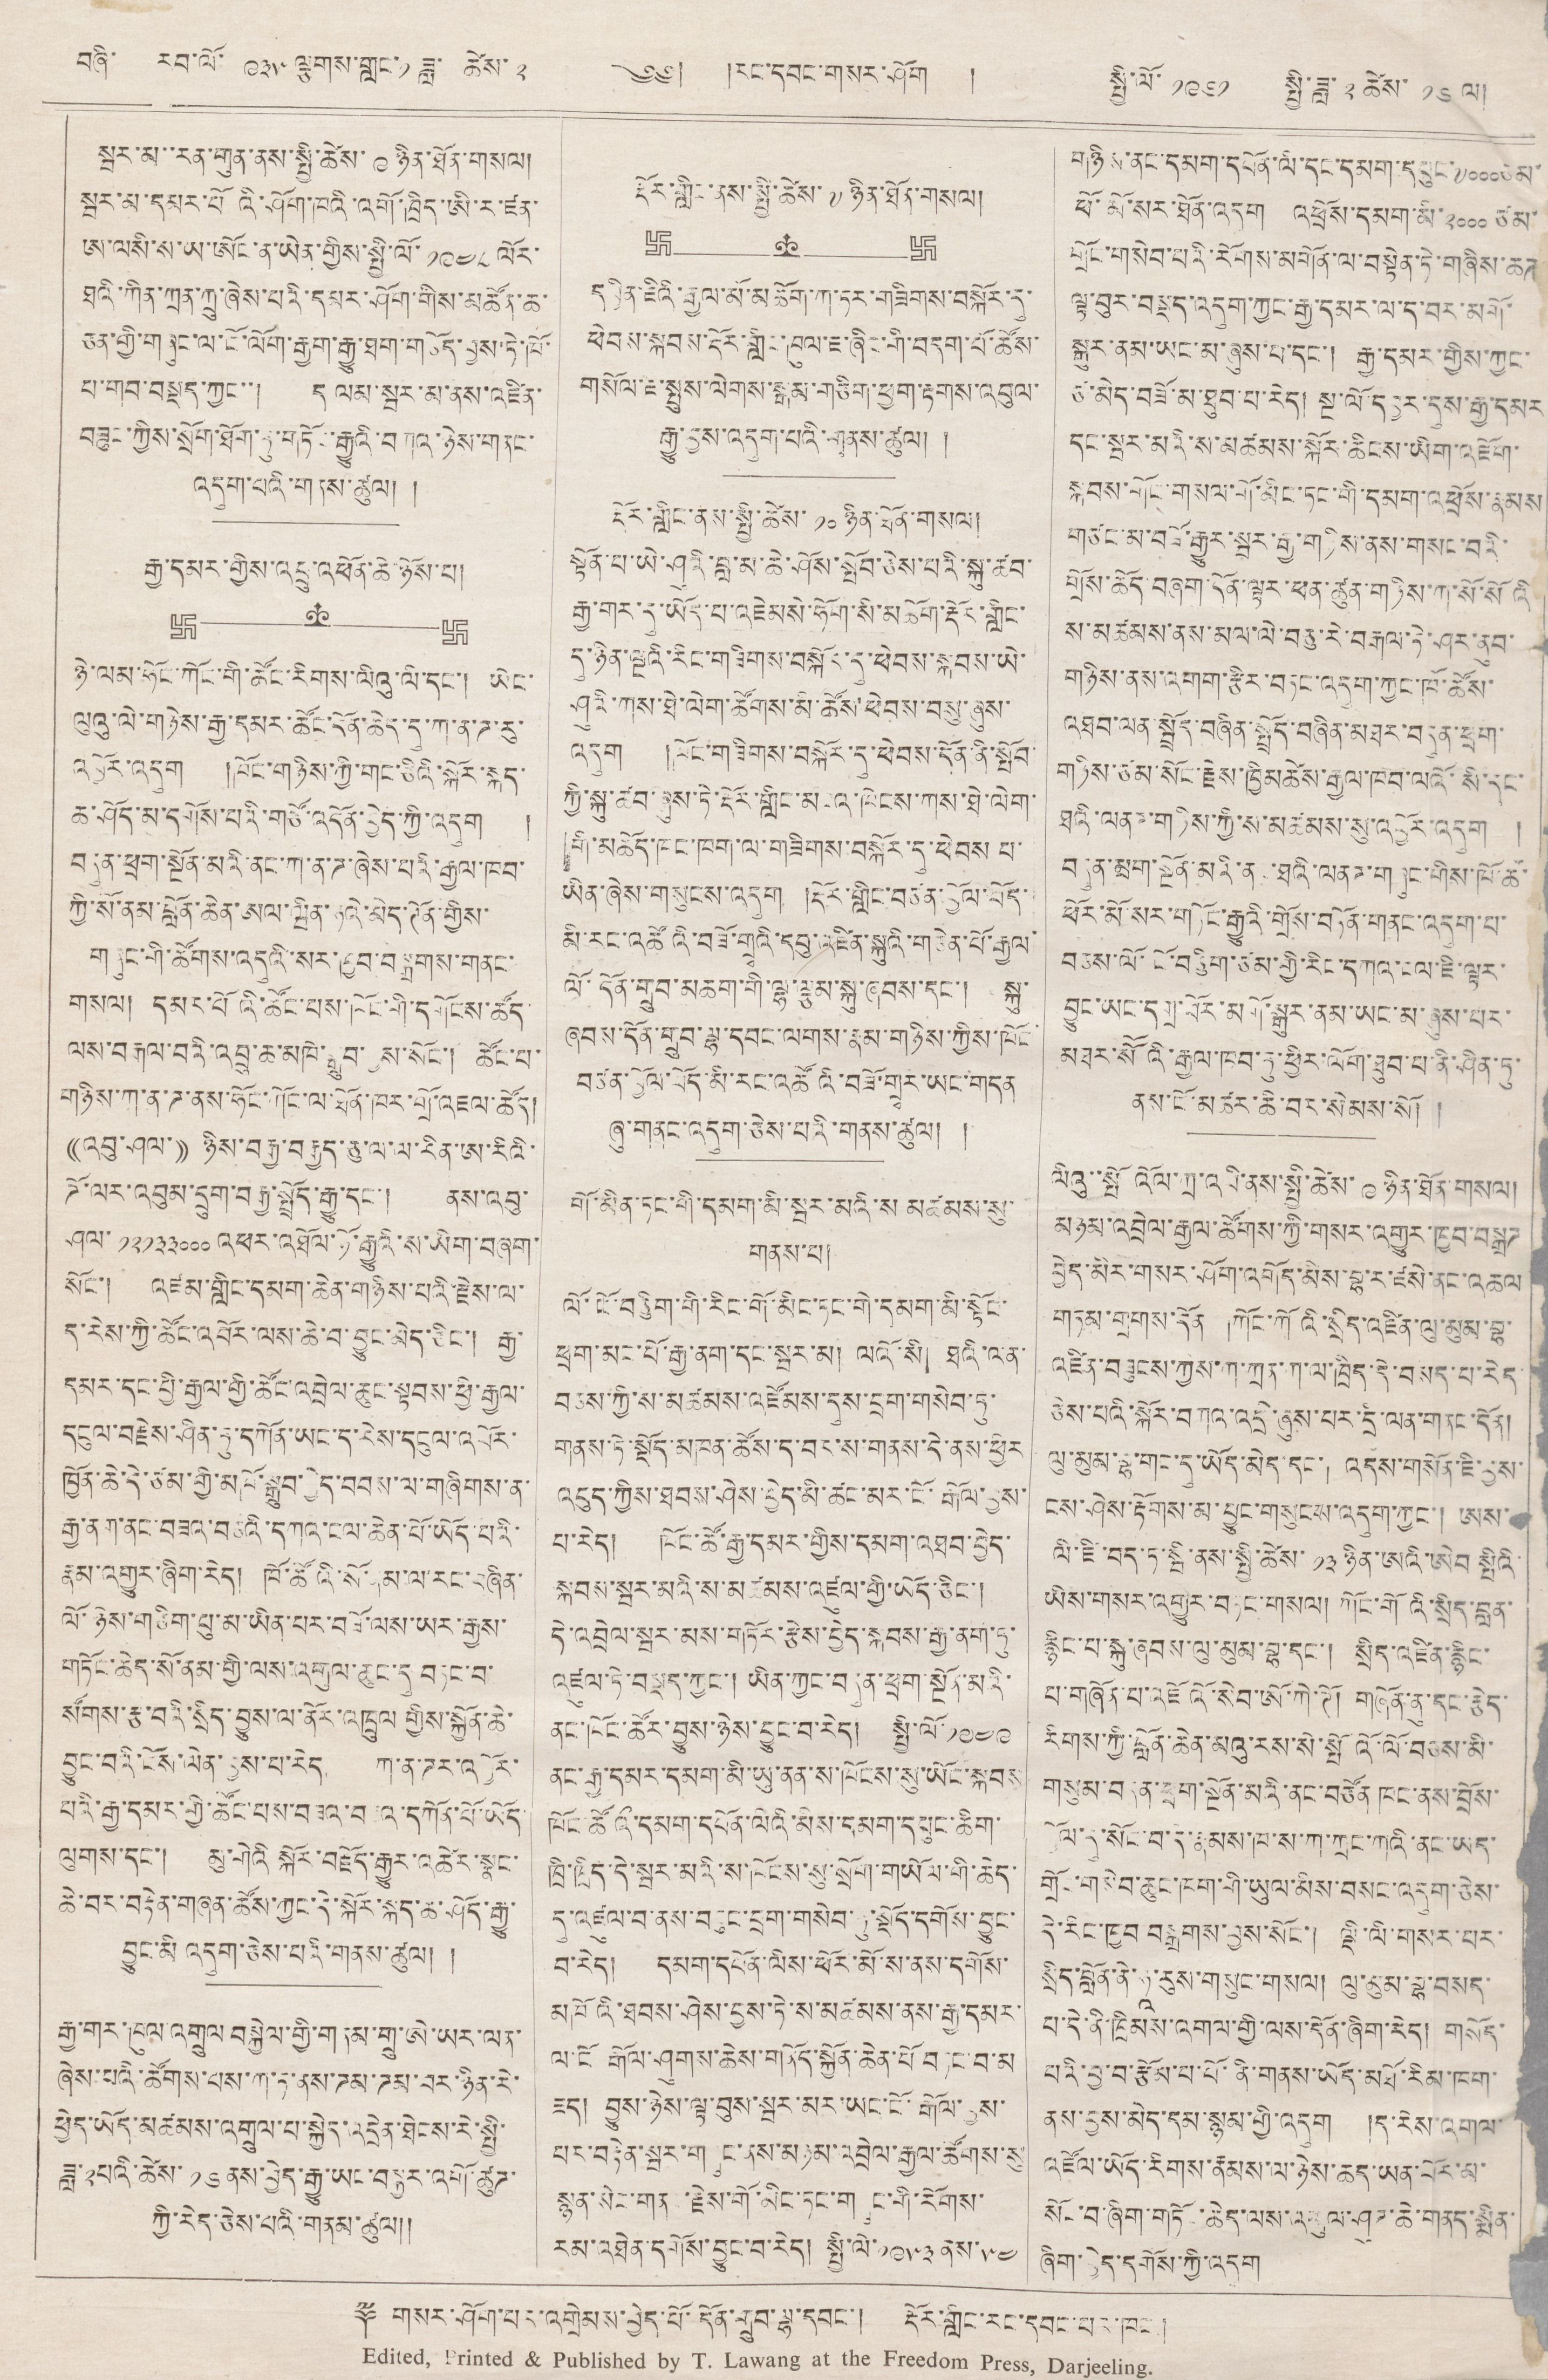བཞི་ རབ་ལོ་ ༩༣༥ ལྕགས་གླང་ ༡ ཟླ་ ཚེས་ ༢ ༄༅། །རང་དབང་གསར་ཤོག ། སྤྱི་ལོ་ ༡༩༦༡ སྤྱི་ཟླ་ ༢ ཚེས་ ༡༦ ལ།
སྦར་མ་་རན་གུན་ནས་སྤྱི་ཚེས་ ༩ ཉིན་ཐོན་གསལ།
སྦར་མ་དམར་པོའི་ཤོག་ཁའི་འགོ་ཁྲིད་ཨི་ར་ཛན་
ཨ་ལསི་ས་ཡ་ཨོང་ན་ཡེན་གྱིས་སྤྱི་ལོ་ ༡༩༤༨ ལོར་
ཐའི་ཀིན་ཀྲན་ཀྲུ་ཞེས་པའི་དམར་ཤོག་གིས་མཚོན་ཆ་
ཅན་གྱི་གཞུང་ལ་ངོ་ལོག་རྒྱག་ཐག་གཅོད་བྱས་ཏེ་ཁོ་
པ་གབ་བསྡད་ཀྱང་་། ད ལམ་སྦར་མ་ནས་འཛིན་
བཟུང་ཀྱིས་སྲོག་ཐོག་ཏུ་གཏོང་རྒྱུའི་བཀའ་ཉེས་གནང་
འདུག་པའི་གནས་ཚུལ། །
རྒྱ་དམར་གྱིས་འབྲུ་འཕོན་ཆེ་ཉོས་པ།
ཉེ་ལམ་ཧོང་ཀོང་གི་ཚོང་རིགས་ལིའུ་ལི་དང་། ཡེང་
ལུའུ་ལེ་གཉེས་རྒྱ་དམར་ཚོང་དོན་ཆེད་དུ་ཀ་ན་ཌ་རུ་
འབྱོར་འདུག །ཁོང་གཉིས་ཀྱི་གང་ཅིའི་སྐོར་སྐད་
ཆ་ཤོད་མ་དགོས་པའི་གཙོ་འདོན་བྱེད་ཀྱི་འདུག །
བདུན་ཕྲག་སྔོན་མའི་ནང་ཀ་ན་ཌ་ཞེས་པའི་རྒྱལ་ཁབ་
ཀྱི་སོ་ནམ་བློན་ཆེན་ཨལ་ཝིན་ཧའེ་མེད་ཊོན་གྱིས་
གཞུང་གི་ཚོགས་འདུའི་སར་ཁྱབ་བསྒྲགས་གནང་
གསལ། དམར་པོའི་ཚོང་པས་ཁོང་གི་དགོངས་ཚོད་
ལས་བརྒལ་བའི་འབྲུ་ཆ་མཁེ་སྒྲུབ་བྱས་སོང་། ཚོང་པ་
གཉིས་ཀ་ན་ཌ་ན་ཤོང་ཀོང་ལ་ཐོན་ཁར་གྲོ་འཇལ་ཚོད།
((འབུ་ཤལ་)) ཉིས་བརྒྱ་བརྒྱད་ཅུ་ལ་ལ་རིན་ཨ་རིའི་
ཌོ་ལར་འབུམ་དྲུག་བརྒྱ་སྤྲོད་རྒྱུ་དང་། ནས་འབུ་
ཤལ་ ༡༢༡༣༣༠༠༠ འཕར་འཐོལ་ཉོ་རྒྱུའི་ས་ཡིག་བཞག་
སོང་། འཛམ་གླིང་དམག་ཆེན་གཉིས་པའི་རྗེས་ལ་
ད་རེས་ཀྱི་ཚོང་འབོར་ལས་ཆེ་བ་བྱུང་མེད་ཅིང་། རྒྱ་
དམར་དང་བྱི་རྒྱལ་གྱི་ཚོང་འབྲེལ་ཆུང་སྟབས་ཕྱི་རྒྱལ་
དངུལ་བརྗེས་ཤིན་ཏུ་དཀོན་ཡང་ད་རེས་ངེས་དངུལ་འབོར་
ཁྱོན་ཆེ་དེ་ཙམ་གྱི་མཁོ་སྒྲུབ་བྱེད་བབས་ལ་གཞིགས་ན་
རྒྱ་ནག་ནང་བཟའ་བཅའི་དཀའ་ངལ་ཆེན་པོ་ཡོད་པའི་
རྣམ་འགྱུར་ཞིག་རེད། ཁོ་ཚོའི་སོ་ནམ་ལ་རང་བཞིན་
ལོ་ཉིས་གཅིག་པུ་མ་ཡིན་པར་བཟོ་ལས་ཡར་རྒྱས་
གཏོང་ཆེད་སོ་ནམ་གྱི་ལས་འགུལ་ཆུང་དུ་བཏང་བ་
སོགས་རྩ་བའི་སྲིད་བྱུས་ལ་ནོར་འཁྲུལ གྱིས་སྐྱོན་ཆེ་
བྱུང་བའི་ངོས་ལེན་བྱས་པ་རེད ཀ་ན་ཌར་འབྱོར་
པའི་རྒྱ་དམར་གྱི་ཚོང་པས་བཟའ་བཅའ་དཀོན་པོ་ཡོད་
ལུགས་དང་། མུ་གེའི སྐོར་བརྗོད་རྒྱུར་འཚེར་སྣང་
ཆེ་བར་བརྟེན་གཞན་ཚོས་ཀྱང་དེ་སྐོར་སྐད་ཆ་ཤོད་རྒྱུ་
བྱུང་མི འདུག་ཅེས་པའི་གནས་ཚུལ། །
རྒྱ་གར་ཁུལ་འགྲུལ བསྐྱེལ་གྱི་གནམ་གྲུ་ཨེ་ཡར་ལན་
ཞེས་པའི་ཚོགས་པས་ཀ་ཏ་ནས་ཌམ་ཌམ་བར་ཉིན་རེ་
ཕྱེད་ཡོད་མཚམས་འགྲུལ་པ་སྐྱེད་འདྲེན་ཐེངས་རེ་སྤྱི་
ཟླ་༢པའི་ཚེས་ ༡༦ ནས་བྱེད་རྒྱུ་ཡང་བསྐྱར་འགོ་ཚུཊ་
ཀྱི་རེད་ཅེས་པའི་གནས་ཚུལ།།
རྡོར་གླིང་ནས་སྤྱི་ཚེས་ ༧ ཉིན་ཐོན་གསལ།
དབྱིན་ཇིའི་རྒྱལ་མོ་མཆོག་ཀ་ཏར་གཟིགས་བསྐོར་དུ་
ཕེབས་སྐབས་རྡོར་གླིང་ཁུལ་ཇ་ཞིང་གི་བདག་པོ་ཚོས་
གསོལ་ཇ་སྤུས་ལེགས་སྒམ་གཅིག་ཕྱག་རྟགས་འབུལ་
རྒྱུ་བྱས་འདུག་པའི་གནས་ཚུལ། །
རྡོར་གླིང་ནས་སྤྱི་ཚེས་ ༡༠ ཉིན་ཐོན་གསལ།
སྟོན་པ་ཡེ་ཤུའི་བླ་མ་ཆེ་ཤོས་སྤོས་ཅེས་པའི་སྐུ་ཚབ་
རྒྱ་གར་དུ་ཡོད་པ་འཇེམསེ་ཧོག་སི་མཆོག་རྡོར་གླིང་
དུ་ཉིན་ལྔའི་རིང་གཟིགས་བསྐོར་དུ་ཕེབས་ཡེ་
ཤུའི་ཀས་ཐེ་ལེག་ཚོགས་མི་ཚོས་ཕེབས་བསུ་ཞུས་
འདུག །ཁོང་གཟིགས་བསྐོར་དུ་ཕེབས་དོན་ནི་སྤོབ་
ཀྱི་སྐུ་ཚབ་ཞུས་ཏེ་རྡོར་གླིང་མངའ་ཁོངས་ཀས་ཐེ་ལེག་
གི་མཆོད་ཁང་ཁག་ལ་གཟིགས་བསྐོར་དུ་ཕེབས པ་
ཡིན་ཞེས་གསུངས་འདུག །རྡོར་གླིང་བཙན་བྱོལ་བོད་
མི་རང་འཚོའི་བཟོ་གྲྭའི་དབུ་འཛིན་སྐུའི་གཅེན་པོ་རྒྱལ་
ལོ་དོན་གྲུབ་མཆག་གི་ལྷ་ལྩམ་སྐུ་ཞབས་དང་། སྐུ་
ཞབས་དོན་གྲུབ་ལྷ་དབང་ལགས་རྣམ་གཉིས་ཀྱིས་ཁོང
བཙན་བྱོལ་བོད་མི་རང་འཚོའི་བཟོ་གྲྭར་ཡང་གདན
ཞུ་གནང་འདུག་ཅེས་པའི་གནས་ཚུལ། །
གོ་མིན་ཏང་གི་དམག་མི་སྦར་མའི་ས མཚམས་སུ་
གནས་པ།
ལོ་ངོ་བཅིུག་གི་རིང་གོ་མིང་ཏང་གི་དམག་མི་སྟོང་
ཕྲག་མང་པོ་རྒྱ་ནག་དང་སྦར་མ། ལའོ་སི། ཐའི་ལན་
བཅས་ཀྱི་ས་མཚམས་འཛོམས་དུས་དྲག་གསེབ་ཏུ་
གནས་ཏེ་སྡོད་མཁན་ཚོས་ད་བར་ས་གནས་དེ་ནས་ཕྱིར
འབུད་ཀྱིས་ཐབས་ཤེས་བྱེད་མི་ཚང་མར་ངོ་རྒོལ་བྱས་
པ་རེད། ཁོང་ཚོ་རྒྱ་དམར་གྱིས་དམག་འཐབ་བྱེད་
སྐབས་སྦར་མའི་ས་མཚམས་འཛུལ་གྱི་ཡོད་ཅིང་།
ཏེ་འབྲེལ་སྦར་མས་གཏོར་རྩེས་བྱེད་སྐབས་རྒྱ་ནག་ཏུ་
འཛུལ་ཏེ་བསྡད་ཀྱང་། ཡིན་ཀྱང་བདུན་ཕྲག་སྔོན་མའི་
ནང་ཁོང་ཚོར་བྱུས་ཉེས་བྱུང་བ་རེད། སྤྱི་ལོ་ ༡༩༤༩
ནང་རྒྱ་དམར་དམག་མི་ཡུ་ནན་ས་ཁོངས་སུ་ཡོང་སྐབས
ཁོང་ཚོའི་དམག་དཔོན་ལིའི་མིས་དམག་དཔུང་ཆིག་
ཁྲི་ཁྲིད་དེ་སྦར་མའི་ས་ཁོངས་སུ་སྲོག་གཡོལ་གི་ཆེད་
དུ་འཛུལ་བ་ནས་བཟུང་དྲག་གསེབ་ཏུ་སྡོད་དགོས་བྱུང་
བ་རེད། དམག་དཔོན་ལིས་ཕོར་མོ་ས་ནས་དགོས་
མཁོའི་ཐབས་ཤེས་བྱས་ཏེ་ས་མཚམས་ནས་རྒྱ་དམར་
ལ་ངོ རྒོལ་ཤུགས་ཆེས་གནོད་སྐྱོན་ཆེན་པོ་བཏང་བ་མ
ཟད། བྱུས་ཉེས་ལྟ་བུས་སྦར་མར་ཡང་ངོ་རྒོལ་བྱས་
པར་བརྟེན་སྦར་གཞུང་ནས་མཉམ་འབྲེལ་རྒྱལ་ཚོགས་སུ
སྙན་སེང་གནང་རྗེས་གོ་མིང་ཏང་གཞུང་གི་རོགས་
རམ་འཐེན་དགོས་བྱུང་བ་རེད། སྤྱི་ལོ་ ༡༩༥༣ ནས་༥༤
གཉིས་ནང་དམག་དཔོན་ལི་དང་དམག་དཔུང་ ༧༠༠༠ ཙམ་
ཕོ་མོ་སར་ཐོན་འདུག འཕྲོས་དམག་མི་ ༢༠༠༠ ཙམ་
གྲོང་གསེབ་པའི་རོགས་མགོན་ལ་བསྟེན་ཏེ་གཞིས་ཆཊ
ལྟ་བུར་བསྡད་འདུག་ཀྱང་རྒྱ་དམར་ལ་ད་བར་མགོ་
སྐུར་ནམ་ཡང་མ་ཞུས་པ་དང་། རྒྱ་དམར་གྱིས་ཀྱང་
ཙ་མེད་བཟོ་མ་ཐུབ་པ་རེད། སྔ་ལོ་དབྱར་དུས་རྒྱ་དམར
དང་སྦར་མའི་ས་མཚམས་སྐོར་ཆིངས་ཡིག་འཇོག་
སྐབས་གོང་གསལ་གོ་མིང་ཏང་གི་དམག་འཕྲོས་རྣམས་
གཙང་མ་བཟོ་རྒྱུར་སྦར་རྒྱ་གཉིས་ནས་གསང་བའི་
གྲོས་ཆོད་བཞག་དོན་ལྟར་ཕན་ཚུན་གཉིས་ཀ་སོ་སོའི
ས་མཚམས་ནས་མལ་ལེ་བཅུ་རེ་བརྒལ་ཏེ་ཤར་ནུབ་
གཉིས་ནས་འགག་རྩིར་བཏང་འདུག་ཀྱང་ཁོ་ཚོས་
འཐབ་ལན་སྦྲོད་བཞིན་སྤྲོད་བཞིན་མཐར་བདུན་ཕྲག་
གཉིས་ཙམ་སོང་རྗེས་ཁྱིམཚེས་རྒྱལ་ཁབ་ལའོ་སི་དང་
ཐའི་ལནཌ་གཉིས་ཀྱི་མཚམས་སུ་འབྱོར་འདུག །
བདུན་ཕྲག་སྔོན་མའི་ནང་ཐའི་ལནཌ་གཞུང་གིས་ཁོ་ཚོ་
ཕོར་མོ་སར་གཏོང་རྒྱུའི་གྲོས་བཏོན་གནང་འདུག་པ་
བཅས་ལོ་ངོ་བཅིུག་ཙམ་གྱི་རིང་དཀའ་ངལ་ཇི་ལྟར་
བྱུང་ཡང་དགྲ་བོར་མགོ་སྒུར་ནམ་ཡང་མ་ཞུས་པར་
མཐར་སཽའི་རྒྱལ་ཁབ་ཏུ་ཕྱིར་ལོག་ཐུབ་པ་ནི་ཤིན་ཏུ་
ནས་ངོ་མཚར་ཆི་བར་སེམས་སོ། །
ལིའུ་སྤོ འོལ་ཀྲ་འབི་ནས་སྤྱི་ཚེས་ ༩ ཉིན་ཐོན་གསལ།
མཉམ་འབྲེལ་རྒྱལ་ཚོགས་ཀྱི་གསར་འགྱུར་ཁྱབ་བསྒྲཊ
བྱེད་མིར་གསར་ཤོག་འགོད་མིས་བྷ་ར་ཛསེ་ནང་འཆལ
གཏམ་གྲགས་དོན །ཀོང་ཀོའི་སྲིད་འཛིན་ལུ་མུམ་བྷ་
འཛིན་བཟུངས་ཀྱིས་ཀ་ཀྲན་ཀ་ལ་ཁྲིད་དེ་བསད་པ་རེད
ཅེས་པའི་སྐོར་བཀའ་འདྲི་ཞུས་པར་དྲི་ལན་གནང་དོན།
ལུ་མུམ་བྷ་གང་དུ་ཡོད་མེད་དང་། འདས་གསོན་ཇི་བྱས་
ངས་ཤེས་རྟོགས་མ་བྱུང་གསུངས་འདུག་ཀྱང་། ཨས་
ལི་ཛི་བད་ཏ་སྦི་ནས་སྤྱི་ཚེས་ ༡༣ ཉིན་ཨའི་ཨེབ་སྤིའི་
ཡིས་གསར་འགྱུར་བཏང་གསལ། ཀོང་གོའི་སྲིད་བླན་
རྙིང་པ་སྐུ་ཞབས་ལུ་མུམ་བྷ་དང་། སྲིད་འཛིན་རྙིང་
པ་གཞོན་པ་འཇོའོ་སེབ་ཨོ་ཀེ་ཊོ། གཞོན་ནུ་དང་རྩེད་
རིགས་ཀྱི་བློན་ཆེན་མའུ་རས་སེ་སྤོའོ་ལོ་བཅས་མི་
གསུམ་བདུན་ཕྲག་སྔོན་མའི་ནང་བཙོན ཁང་ནས་བྲོས་
བྱོལ་དུ་སོང་བ་དེ་རྣམས་ཁ་ས་ཀ་ཀྲང་ཀའི་ནང་ཡད་
གྲོང་གསེབ་ཆུང་ཁག་གི་ཡུལ་མིས་བསང་འདུག་ཅེས་
དེ་རིང་ཁྱབ བསྒྲགས་བྱས་སོང་། ལྡི་ལི་གསར་པར་
སྲིད་བློན་ནེ་ཧཱ་རུས་གསུང་གསལ། ལུ་མུམ་བྷ་བསད་
པ་དེ་ནི་ཁྲིམས་འགལ་གྱི་ལས་དོན་ཞིག་རེད། གསོད་
པའི་བྱ་བ་རྩོམ་པ་པོ་ནུ་གནས་ཡོད་མཐོ་རིམ་ཁག་
ནས་བྱས་མེད་དམ་སྙམ་གྱི་འདུག །ད་རེས་འགལ་
འཛོལ་ཡོད་རིགས་རྣམས་ལ་ཉེས་ཆད་ཡན་པོར་མ་
སོང་བ་ཞིག་གཏོང་ཆེད་ལས་འགུལ་ཤུཊ་ཆེ་གནད་སྨིན་
ཞིག་བྱེད་དགོས་ཀྱི་འདུག
༈ གསར་ཤོག་པར་འགྲེམས་བྱེད་པོ་དོན་གྲུབ་ལྷ་དབང་། རྡོར་གླིང་རང་དབང་པར་ཁང་།
Edited, Printed & Published by T. Lawang at the Freedom Press, Darjeeling.
